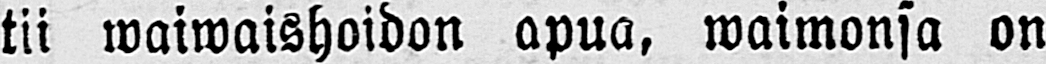tii waiwaishoidon apua, waimonsa on
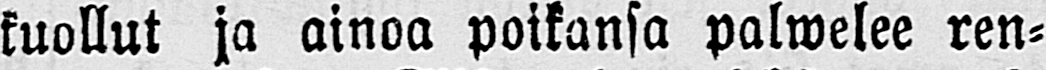kuollut ja ainoa poikansa palwelee ren-
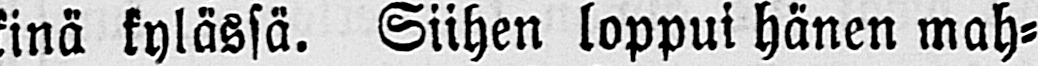kinä kylässä. Siihen loppui hänen mah-
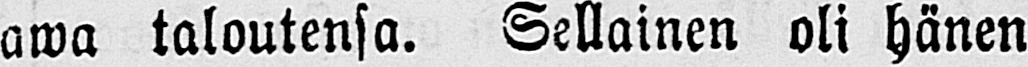tawa taloutensa. Sellainen oli hänen
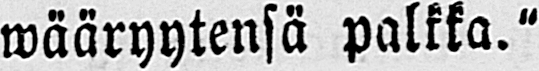wääryytensä palkka."
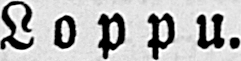Loppu.
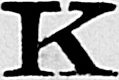KAIKU.
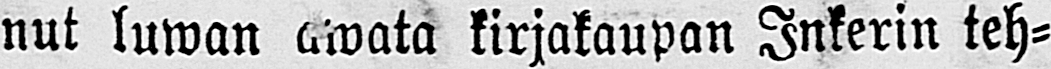nut luwan awata kirjakaupan Inkerin teh-
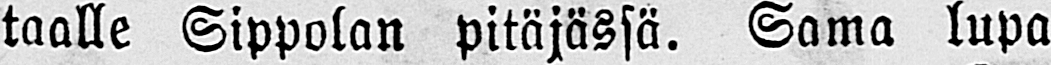taalle Sippolan pitäjässä. Sama lupa
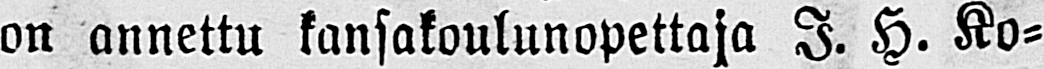on annettu kansakoulunopettaja I. H. Ko-
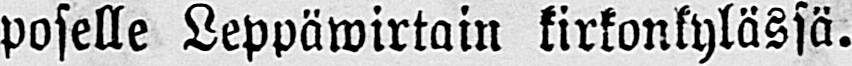poselle Leppäwirtain kirkonkylässä.
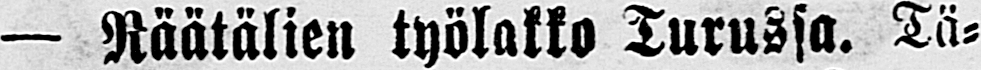— Räätälien työlakko Turussa. Tä-
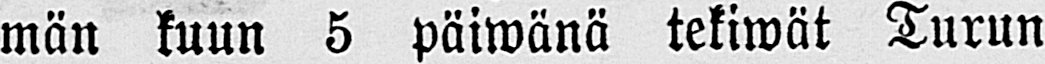män kuun 5 päiwänä tekiwät Turun
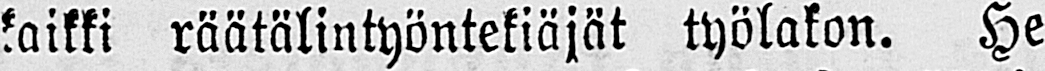kaikki räätälintyöntekiäjät työlakon. He
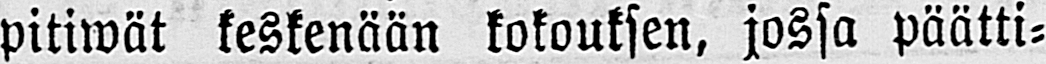pitävät keskenään kokouksen, jossa päätti-
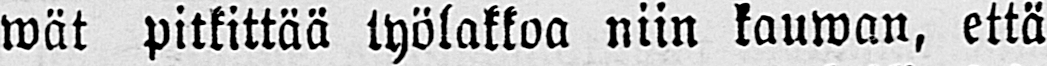wät pitkittää työlakkoa niin kauman, että
